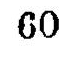60
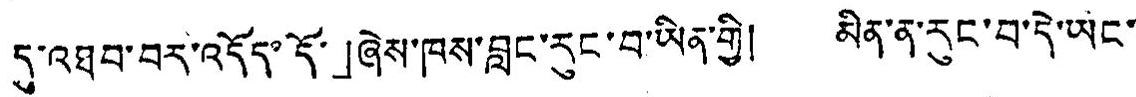དུ་འཐབ་བར་འདོད་དོ་」ཞེས་ཁས་བླང་རུང་བ་ཡིན་གྱི། མིན་ན་རུང་བ་དེ་ཡང་
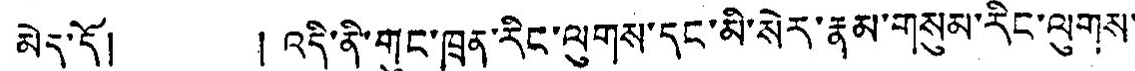མེད་དོ། ། འདི་ནི་གུང་ཁྲན་རིང་ལུགས་དང་མི་སེར་རྣམ་གསུམ་རིང་ལུགས་
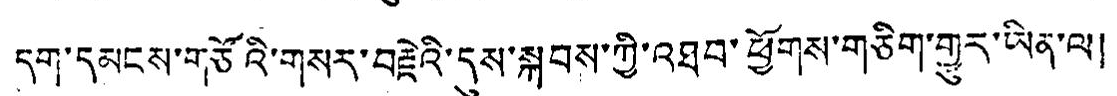དག་དམངས་གཙོའི་གསར་བརྗེའི་དུས་སྐབས་ཀྱི་འཐབ་ཕྱོགས་གཅིག་གྱུར་ཡིན་ལ།
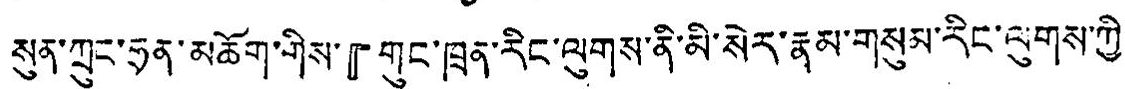སུན་ཀྲུང་ཧྲན་མཆོག་གིས་『གུང་ཁྲན་རིང་ལུགས་ནི་མི་སེར་རྣམ་གསུམ་རིང་ལུགས་ཀྱི་
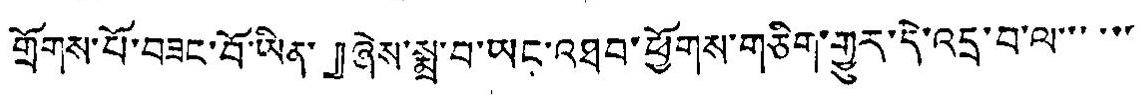གྲོགས་པོ་བཟང་བོ་ཡིན་』ཞེས་སྨྲ་བ་ཡང་འཐབ་ཕྱོགས་གཅིག་གྱུར་དེ་འདྲ་བ་ལ་་་་་་
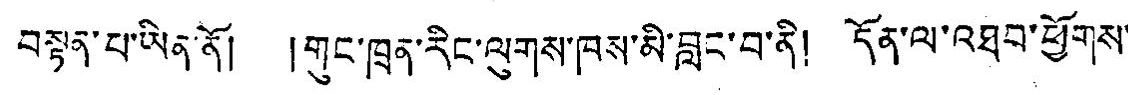བསྟན་པ་ཡིན་ནོ། །གུང་ཁྲན་རིང་ལུགས་ཁས་མི་བླང་བ་ནི། དོན་ལ་འཐབ་ཕྱོགས་
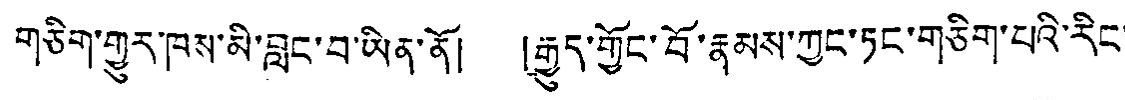གཅིག་གྱུར་ཁས་མི་བླང་བ་ཡིན་ནོ། །རྒྱུད་གྱོང་བོ་རྣམས་ཀྱང་ཏང་གཅིག་པའི་རིང་
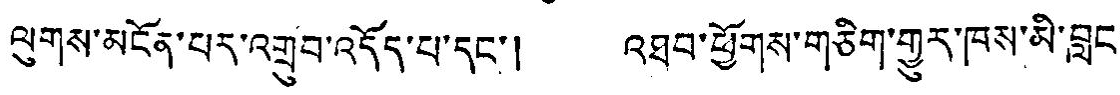ལུགས་མངོན་པར་འགྲུབ་འདོད་པ་དང་། འཐབ་ཕྱོགས་གཅིག་གྱུར་ཁས་མི་བླང་
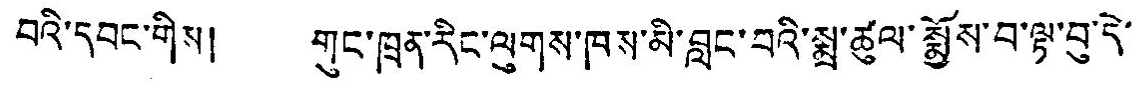བའི་དབང་གིས། གུང་ཁྲན་རིང་ལུགས་ཁས་མི་བླང་བའི་སྨྲ་ཚུལ་སྨྱོས་བ་ལྟ་བུ་དེ་
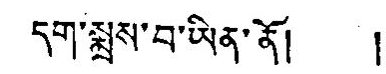དག་སྨྲས་བ་ཡིན་ནོ། །
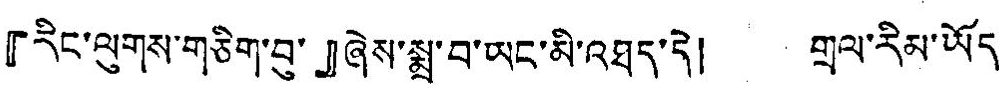『རིང་ལུགས་གཅིག་བུ་』ཞེས་སྨྲ་བ་ཡང་མི་འཐད་དེ། གྲལ་རིམ་ཡོད་
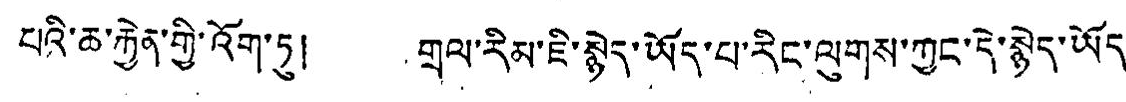པའི་ཆ་རྐྱེན་གྱི་འོག་ཏུ། གྲལ་རིམ་ཇི་སྙེད་ཡོད་པ་རིང་ལུགས་ཀྱང་དེ་སྙེད་ཡོད་
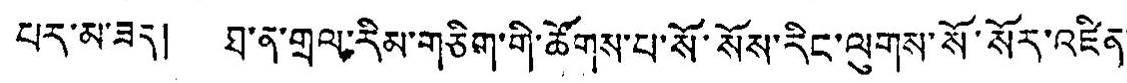པར་མ་ཟད། ཐ་ན་གྲལ་རིམ་གཅིག་གི་ཚོགས་པ་སོ་སོས་རིང་ལུགས་སོ་སོར་འཛིན་
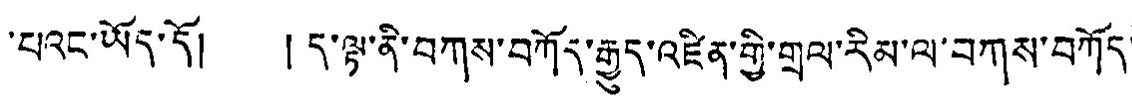པའང་ཡོད་དོ། །ད་ལྟ་ནི་བཀས་བཀོར་རྒྱུད་འཛིན་གྱི་གྲལ་རིམ་ལ་བཀས་བཀོད་
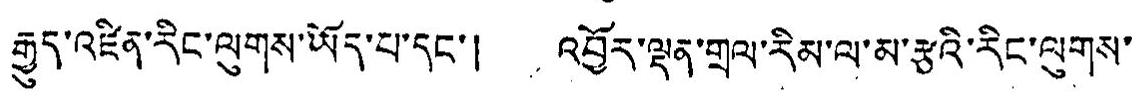རྒྱུད་འཛིན་རིང་ལུགས་ཡོད་པ་དང་། འབྱོར་ལྡན་གྲལ་རིམ་ལ་མ་རྩའི་རིང་ལུགས་
